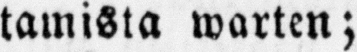tamista warten;
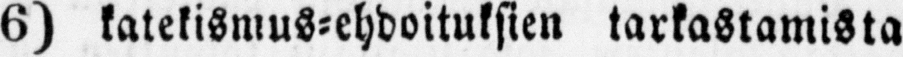6) katekismus-ehdoituksien tarkastamista
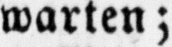warten;
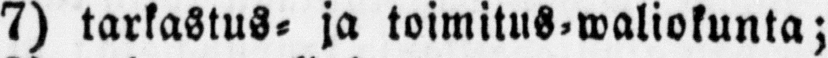7) tarkastus- ja toimitus-waliokunta;
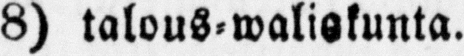8) talous-waliokunta.
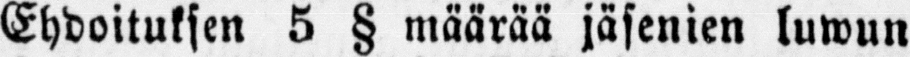Ehdoituksen 5 § määrää jäsenien luwun
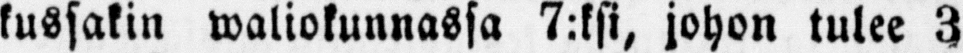kussakin waliokunnassa 7:ksi, johon tulee 3
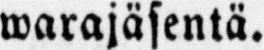warajäsentä.
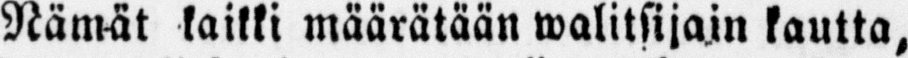Nämät kaikki määrätään walitsijain kautta,
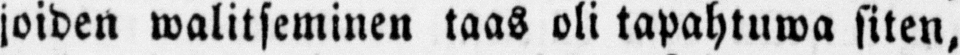joiden walitseminen taas oli tapahtuwa siten,
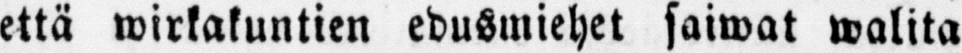että wirkakuntien edusmiehet saiwat walita
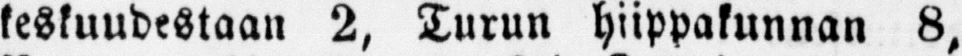keskuudestaan 2, Turun hiippakunnan 8,
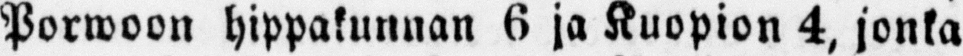Porwoon hippakunnan 6 ja Kuopion 4, jonka
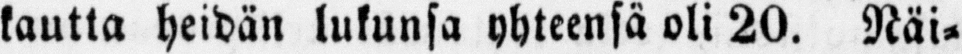kautta heidän lukunsa yhteensä oli 20. Näi-
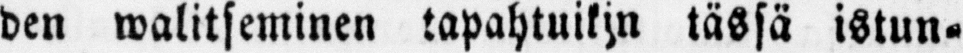den walitseminen tapahtuikin tässä istun-
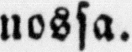nossa.
